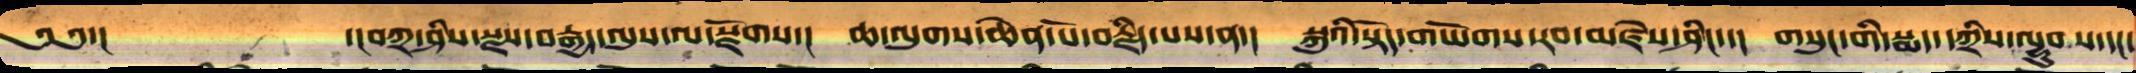༄༅་། ་།བཀྲ་ཤིས་རྟགས་བརྒྱད་ལུས་ལ་སྫོགས་། ཆ་ལུགས་ཆེན་པོས་བརྗིད་པས་ན་། སྐུ་ཡི་སྟོད་གཡོགས་རབ་མཛེས་ཤིང་། གསུང་གི་སྨད་དཀྲིས་ལྷུབས་དང་
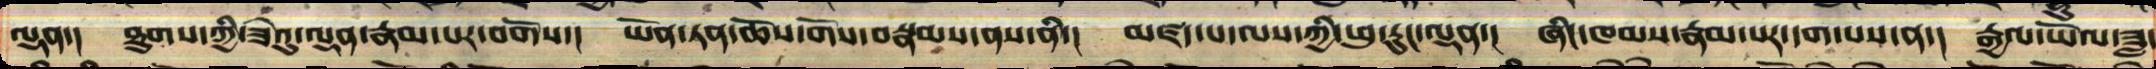ལྡན་། ཐུགས་ཀྱི་ཟེའུ་ལྡན་རྣམ་པར་བགོས་། ཡོན་ཏན་ཆོས་གོས་བསྣམས་ནས་ནི་། མཛད་པ་ལས་ཀྱི་ཕུ་རུང་ལྡན་། ཞིང་ཁམས་རྣམ་པར་དག་པས་ན་། རྒྱབ་ཡོལ་ཟླ་
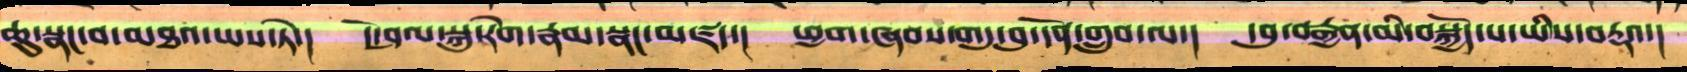ཆུ་སྣང་བ་མཐའ་ཡས་ཏེ་། དོ་ཤལ་སྐུ་རེག་རྣམ་སྣང་མཛད་། ཕྱག་ཞབས་གདུ་བུ་དོན་གྲུབ་ལ་། དབུ་རྒྱན་མི་བསྐྱོད་པ་ཡི་བརྡའ་།
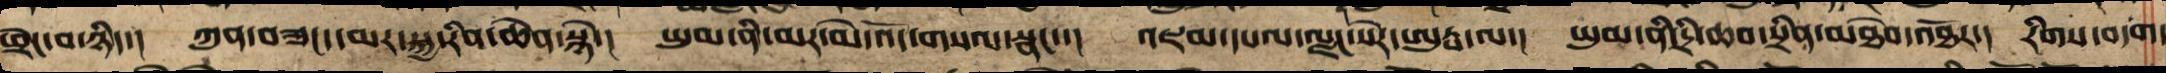ཕྲེང་བ་ཉིད་། ཀུན་བཟང་དམར་སྐྱ་རིན་ཆེན་སྙེ་། ཡུམ་ནི་མར་མེ་འོད་གསལ་སྣང་་། འཇམ་དཔལ་ལྗང་སེར་ཨུཏྤ་ལ་། ཡུམ་ནི་དྲི་ཆབ་སྲིན་མཐེབ་འཐོར་། རིགས་བདག་
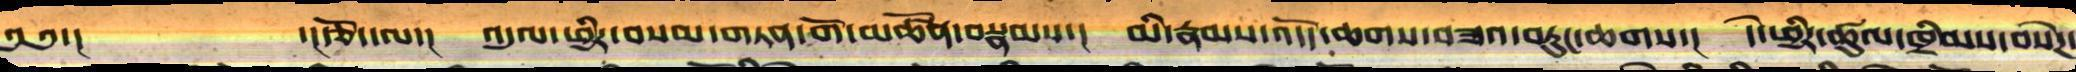༄༄་།         ་།རྩོད་ལ་།  འདུལ་ཕྱིར་བསམ་གཏན་གོ་མཚོན་བསྣམས་།  མི་རྣམས་འདོད་ཆགས་བཟའ་བཏུང་ཆགས་།   དེ་ཕྱིར་ཚུལ་ཁྲིམས་བསེཌ་
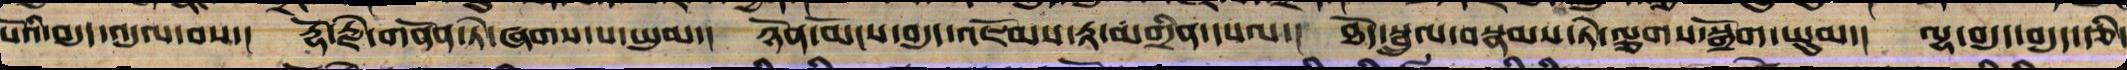པོའི་བདུད་འདུལ་བས་།  རྡོ་རྗེ་གནོན་ཏེ་ཞགས་པ་ཡུམ་།  ཉོན་མོངས་བདུད་འཇོམས་རྟ་མགྲིན་དཔལ་།   ཐོད་སྦྲུལ་བསྣམས་ཏེ་ལྕགས་སྒྲོག་ཡུམ་།  ལྷ་བདུད་བདུད་རྩི་
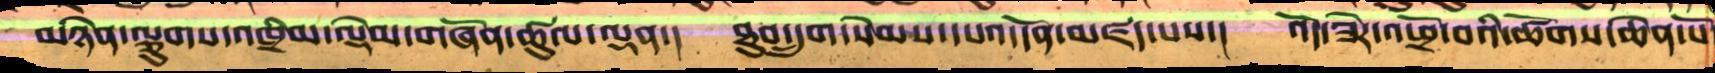མཉེན་ལྕུགས་འཁྲིམ་ལྡེམ་གཞོན་ཚུལ་ཅན་།  ཐུབ་དྲུག་སེམས་དཔའ་དོན་མཛད་པས་།  འོད་ཟེར་འཕྲོ་བའི་ཚོགས་ཆེན་པོ
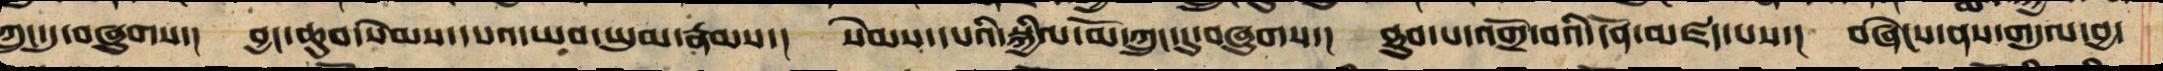ཀྲུང་དུ་བཞུགས་།  བྱང་ཆུབ་སེམས་དཔའ་ཡབ་ཡུམ་རྣམས་།  སེམས་དཔའི་སྐྱིལ་མོ་ཀྲུང་དུ་བཞུགས་།  ཐུབ་པ་འགྲོ་བའི་དོན་མཛད་པས་།  བཞེངས་ནས་གདུལ་བྱ་
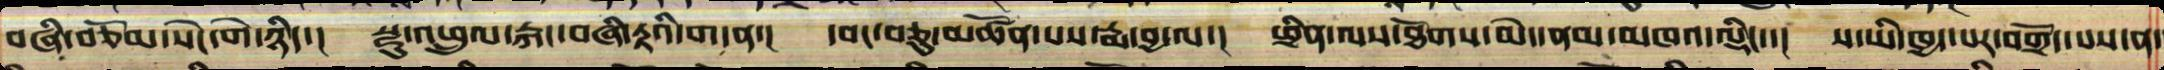བཞི་བཅོམ་སེང་གེ་ཉིད།  སྫུ་འཕྲུལ་རྐང་བཞི་རྟའི་གདན་།  དབང་བཅུ་མཚོན་པས་རྨ་བྱ་ལ་།  ཕྲིན་ལས་ཐོགས་མེད་ནམ་མཁའ་ལྡིང་་།  ས་ཡི་ཁྱད་པར་བགྲོད་པས་ན་
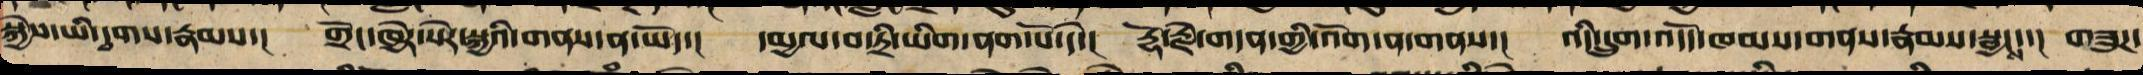སྐྱེས་ཡི་དྭགས་རྣམས་། གྲོང་ཁྱེར་སེར་སྐྱའི་གནས་ན་ཡོད་། དམྱལ་བ་ཏྲི་ཡིག་ནག་པོ་དེ་། རྡོ་རྗེ་གདན་གྱི་འོག་ན་གནས་། འདི་དྲུག་འདོད་ཁམས་གནས་རྣམས་སྦྱངས་། གཟུཌ་
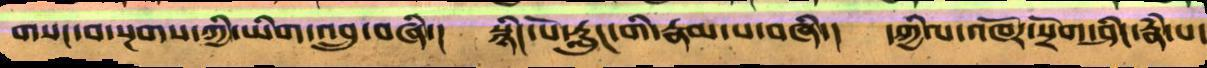གསང་བ་སྔགས་ཀྱི་ཡིག་འབྲུ་བཞི་།  སྙིང་པོ་རླུང་གི་རྣམ་པ་བཞི་།  དཀྱིལ་འཁོར་སྲོག་ཤིང་རྣཾ་པ་
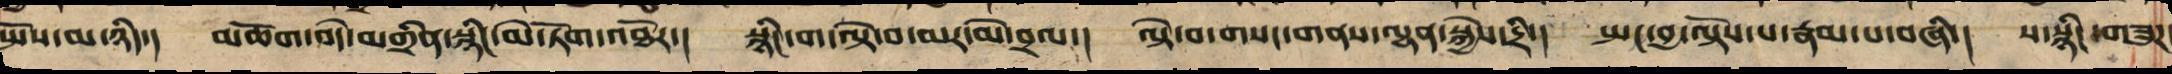སྤོས་མ་ཉིད་།  མཆོག་བདེ་མགྲིན་སྙིང་མེ་ཏོག་འཐོར་།  སྙིང་ག་ལྟེ་བ་མར་མེ་བྲལ་།    ལྟེ་བ་གསང་གནས་ལྷན་སྐྱེས་དྲི་།  སྤང་བྱ་ལྟོས་པ་རྣམ་པ་བཞི་།  ས་སྙིང་གཟུཌ
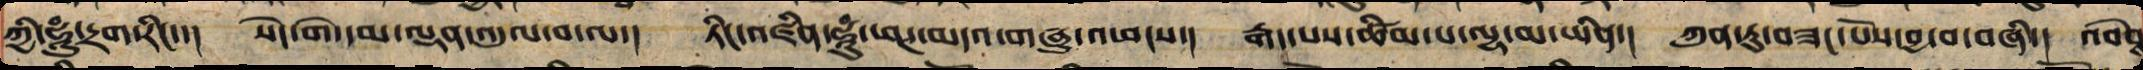ཀྱི་ཧཱུཾ་དྲག་རིང་་། སེང་གེ་དམ་ལྡན་འདུལ་བ་ལ་། ཏིང་འཛིན་ཧཱུཾ་ཕཊ་མདའ་གཞུ་འཕངས་། རྒད་པས་ཚིམ་པ་ལྷ་མ་ཡིན་། ཀུན་ཏུ་བཟང་པོའི་བྱ་བ་བཞི་། འབེབས་
